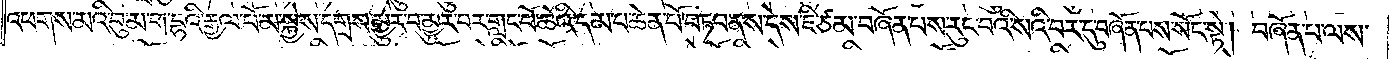འཕགས་མའི་བུ་མ་ག་དྷའི་རྒྱལ་པོ་མ་སྐྱེས་དགྲས་མྱུར་བ་མྱུར་བར་གླང་པོ་ཆེའི་དམ་པ་ཆེན་པོ་བཏབ་ནས་དེས་ཇི་ཙམ་བཞོན་པས་རུང་བའི་སའི་བར་དུ་བཞོན་པས་སོང་སྟེ། བཞོན་པ་ལས་
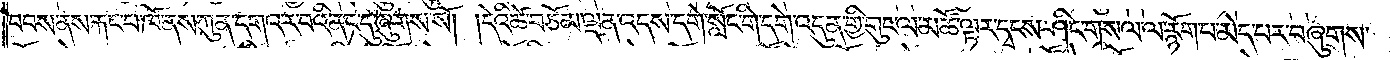བབས་ནས་རྐང་པ་ཁོ་ནས་ཀུན་དགའ་ར་བའི་ནང་དུ་ཞུགས་སོ། །དེའི་ཚེ་བཅོམ་ལྡན་འདས་དགེ་སློང་གི་དགེ་འདུན་གྱི་གུང་ལ་མཚོ་ལྟར་དྭངས་ཤིང་གསལ་ལ་རྙོག་པ་མེད་པར་བཞུགས་
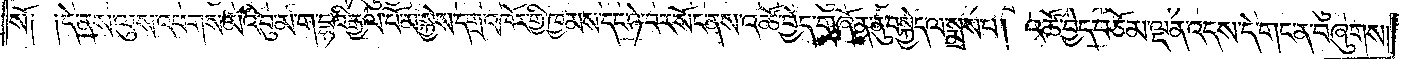སོ། །དེ་ནས་ལུས་འཕགས་མའི་བུ་མ་ག་དྷའི་རྒྱལ་པོ་མ་སྐྱེས་དགྲ་འཁོར་གྱི་ཁྱམས་དང་ཉེ་བར་སོང་ནས་འཚོ་བྱེད་གཞོན་ནུ་བསྐྱེད་ལ་སྨྲས་པ། འཚོ་བྱེད་བཅོམ་ལྡན་འདས་དེ་གང་ན་བཞུགས།
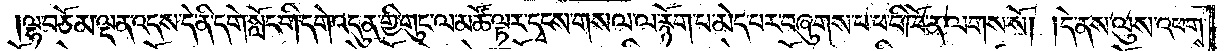ལྷ་བཅོམ་ལྡན་འདས་དེ་ནི་དགེ་སློང་གི་དགེ་འདུན་གྱི་གུང་ལ་མཚོ་ལྟར་དྭངས་གསལ་ལ་རྙོག་པ་མེད་པར་བཞུགས་པ་ཕ་བི་ཁོ་ན་ལགས་སོ། །དེ་ནས་ལུས་འཕགས་
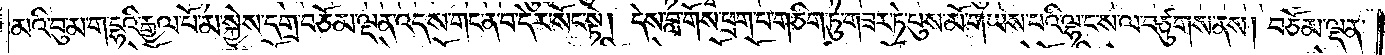མའི་བུ་མ་ག་དྷའི་རྒྱལ་པོ་མ་སྐྱེས་དགྲ་བཅོམ་ལྡན་འདས་གང་ན་བ་དེར་སོང་སྟེ། དེས་བླ་གོས་ཕྲག་པ་གཅིག་ཏུ་གཟར་ཏེ་པུས་མོ་གཡས་པའི་ལྷ་ང་ས་ལ་བཙུགས་ནས། བཅོམ་ལྡན་
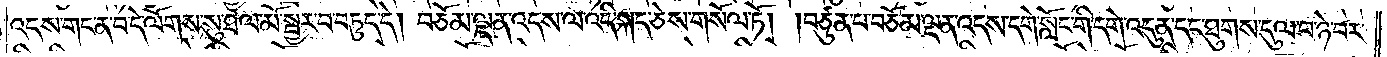འདས་གང་ན་བ་དེ་ལོགས་སུ་ཐལ་མོ་སྦྱར་བ་བཏུད་དེ། བཅོམ་ལྡན་འདས་ལ་འདི་སྐད་ཅེས་གསོལ་ཏོ། །བཙུན་པ་བཅོམ་ལྡན་འདས་དགེ་སློང་གི་དགེ་འདུན་དང་ཐུགས་དུལ་བ་ཉེ་བར་
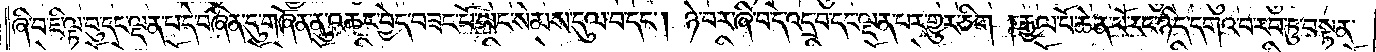ཞི་བ་ཇི་ལྟ་བུ་དང་ལྡན་པ་དེ་བཞིན་དུ་གཞོན་ནུ་འཆར་བྱེད་བཟང་པོ་ཡང་སེམས་དུལ་བ་དང༌། ཉེ་བར་ཞི་བ་དེ་འདྲ་བ་དང་ལྡན་པར་གྱུར་ཅིག །རྒྱལ་པོ་ཆེན་པོ་རང་ཉིད་དགའ་བ་རབ་ཏུ་བསྟན་
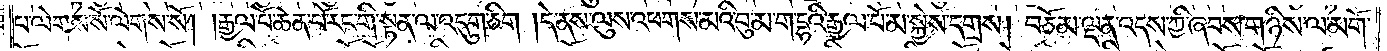པ་ལེགས་སོ་ལེགས་སོ། །རྒྱལ་པོ་ཆེན་པོ་རང་གི་སྟན་ལ་འདུག་ཅིག །དེ་ནས་ལུས་འཕགས་མའི་བུ་མ་ག་དྷའི་རྒྱལ་པོ་མ་སྐྱེས་དགྲས། བཅོམ་ལྡན་འདས་ཀྱི་ཞབས་གཉིས་ལ་མགོ་
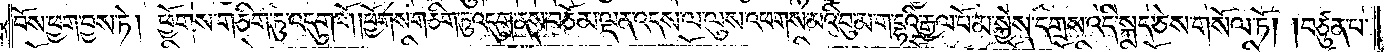བོས་ཕྱག་བྱས་ཏེ། ཕྱོགས་གཅིག་ཏུ་འདུག་གོ །ཕྱོགས་གཅིག་ཏུ་འདུག་ནས་བཅོམ་ལྡན་འདས་ལ་ལུས་འཕགས་མའི་བུ་མ་ག་དྷའི་རྒྱལ་པོ་མ་སྐྱེས་དགྲས་འདི་སྐད་ཅེས་གསོལ་ཏོ། །བཙུན་པ་
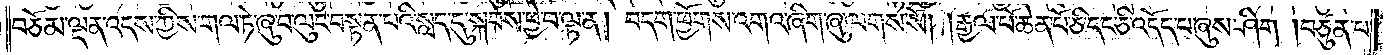བཅོམ་ལྡན་འདས་ཀྱིས་གལ་ཏེ་ཞུ་བ་ལུང་བསྟན་པའི་སླད་དུ་སྐབས་ཕྱེ་བ་ལྟ་ན། བདག་ཕྱོགས་འགའ་ཞིག་ཞུ་ལགས་སོ། །རྒྱལ་པོ་ཆེན་པོ་ཅི་དང་ཅི་འདོད་པ་ཞུས་ཤིག །བཙུན་པ་
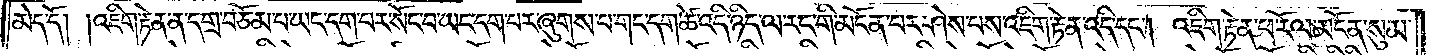མེད་དོ། །འཇིག་རྟེན་ན་དགྲ་བཅོམ་པ་ཡང་དག་པར་སོང་བ་ཡང་དག་པར་ཞུགས་པ་གང་དག་ཚེ་འདི་ཉིད་ལ་རང་གི་མངོན་པར་ཤེས་པས་འཇིག་རྟེན་འདི་དང༌། འཇིག་རྟེན་ཕ་རོལ་མངོན་སུམ་
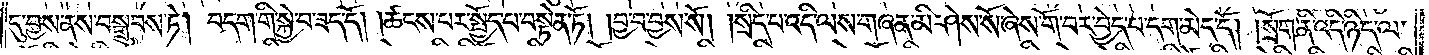དུ་བྱས་ནས་བསྒྲུབས་ཏེ། བདག་གི་སྐྱེ་བ་ཟད་དོ། །ཚངས་པར་སྤྱོད་པ་བསྟེན་ཏོ། །བྱ་བ་བྱས་སོ། །སྲིད་པ་འདི་ལས་གཞན་མི་ཤེས་སོ་ཞེས་གོ་བར་བྱེད་པ་དག་མེད་དོ། །སྲོག་ནི་འདི་ཉིད་ལ་
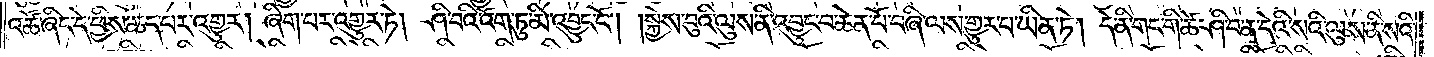འཚོ་ཞིང་དེ་ཕྱིས་ཆད་པར་གྱུར། ཞིག་པར་འགྱུར་ཏེ། ཤི་བའི་འོག་ཏུ་མི་འབྱུང་ངོ༌། །སྐྱེས་བུའི་ལུས་ནི་འབྱུང་བ་ཆེན་པོ་བཞི་ལས་གྱུར་པ་ཡིན་ཏེ། དེ་ནི་གང་གི་ཚེ་ཤི་བ་ན་དེའི་སའི་ལུས་ནི་སའི་
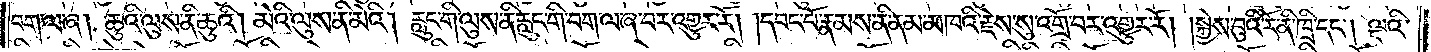བག་ལ་ཞ། ཆུའི་ལུས་ནི་ཆུའི། མེའི་ལུས་ནི་མེའི། རླུང་གི་ལུས་ནི་རླུང་གི་བག་ལ་ཞ་བར་འགྱུར་རོ། །དབང་པོ་རྣམས་ནི་ནམ་མཁའི་རྗེས་སུ་འགྲོ་བར་འགྱུར་རོ། །སྐྱེས་བུའི་རོ་ནི་ཁྲི་དང༌། ལྔའི་
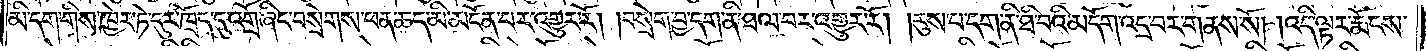མི་དག་གིས་ཁྱེར་ཏེ་དུར་ཁྲོད་དུ་འགྲོ་ཞིང་བསྲེགས་ཕན་ཆད་མི་མངོན་པར་འགྱུར་རོ། །བསྲེག་བྱ་དག་ནི་ཐལ་བར་འགྱུར་རོ། །རུས་པ་དག་ནི་ཐི་བའི་མདོག་འདྲ་བར་གནས་སོ། །འདི་ལྟར་རྨོངས་
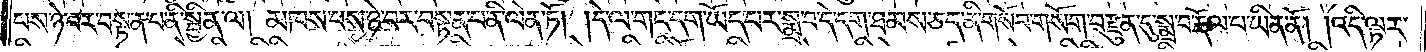པས་ཉེ་བར་བསྟན་པ་ནི་སྦྱིན་ལ། མཁས་པས་ཉེ་བར་བསྟན་པ་ནི་ལེན་ཏོ། །དེ་ལ་གང་དག་ཡོད་པར་སྨྲ་བ་དེ་དག་ཐམས་ཅད་ནི་གསོབ་གསོག་བརྫུན་དུ་སྨྲ་བ་རྡོལ་བ་ཡིན་ནོ། །འདི་ལྟར་
